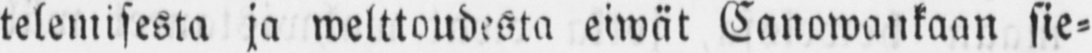telemisesta ja welttoudesta eiwät Canowankaan sie-
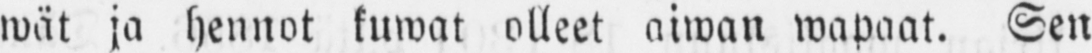wät ja hennot kuwat olleet aiwan wapaat. Sen
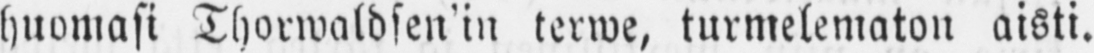huomasi Thorwaldsen’in terwe, turmelematon aisti.
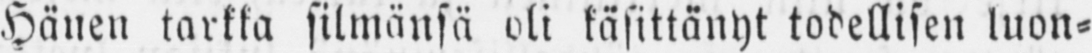Hänen tarkka silmänsä oli käsittänyt todellisen luon-
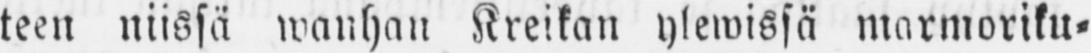teen niissä wanhan Kreikan ylewissä marmoriku-
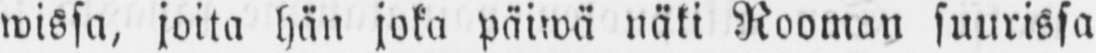wissa, joita hän joka päiwä näki Rooman suurissa
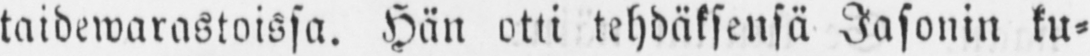taidewarastoissa. Hän otti tehdäksensä Jasonin ku-
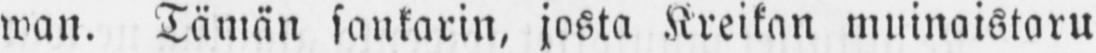wan. Tämän sankarin, josta Kreikan muinaistaru
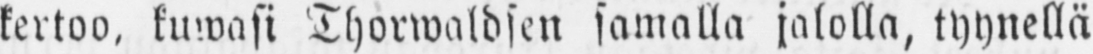kertoo, kuwasi Thorwaldsen samalla jalolla, tyynellä
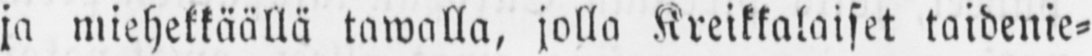ja miehekkäällä tawalla, jolla Kreikkalaiset taidenie-
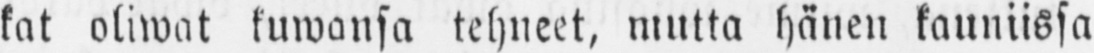kat oliwat kuwansa tehneet, mutta hänen kauniissa
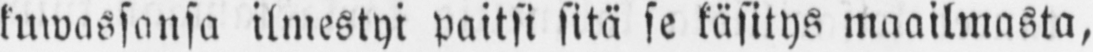kuwassansa ilmestyi paitsi sitä se käsitys maailmasta,
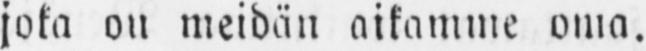joka on meidän aikamme oma.
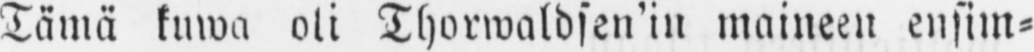Tämä kuwa oli Thorwaldsen’in maineen ensim-
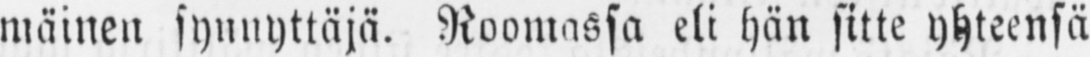mäinen synnyttäjä. Roomassa eli hän sitte yhteensä
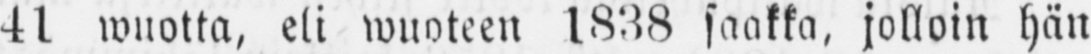41 wuotta, eli wuoteen 1828 saakka, jolloin hän
